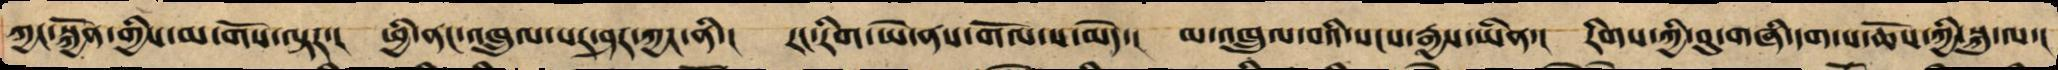ཀྱང་སྐྱོན་གྱིས་མ་གོས་ལྟར་། ཕྱི་ནང་འཁྲུལ་པར་ཤར་ཀྱང་ནི་། རང་རིག་ཡེ་ནས་གོལ་ས་མེད་། མ་འཁྲུལ་བའི་སངས་རྒྱས་ཡིན་། རིགས་ཀྱི་བུ་གཞི་དག་པ་ཆོས་ཀྱི་སྐུ་ལ་།
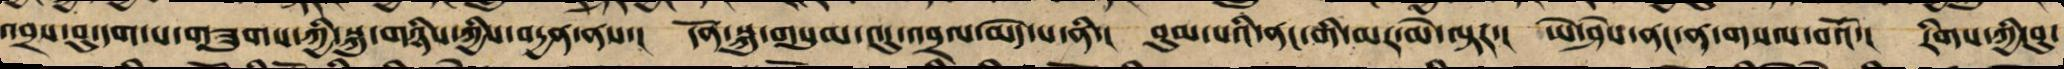འབྲས་བུ་དག་པ་གཟུགས་ཀྱི་སྐུ་གཉིས་ཀྱིས་བདྱན་ནས་། དོན་སྐུ་གསུམ་འདུ་འབྲལ་མེད་པ་ནི་། བུམ་པའི་ནང་གི་མར་མེ་ལྟར་། ཡེ་ཤེས་ནང་ན་གསལ་བའོ་། རིགས་ཀྱི་བུ་
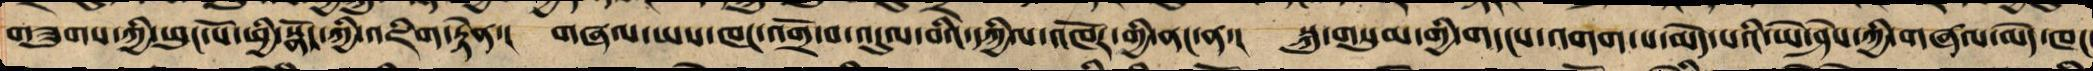གཟུགས་ཀྱི་ཕུང་པོ་ཕྱི་སྣོད་ཀྱི་འཇིག་རྟེན་། གཞལ་ཡས་ཁང་འགྲོ་བ་འདུལ་བའི་དཀྱིལ་འཁོར་གྱི་ནང་ན་། སྐུ་གསུམ་གྱི་གདངས་འགག་པ་མེད་པའི་ཡེ་ཤེས་ཀྱི་གཞལ་མེད་ཁང་
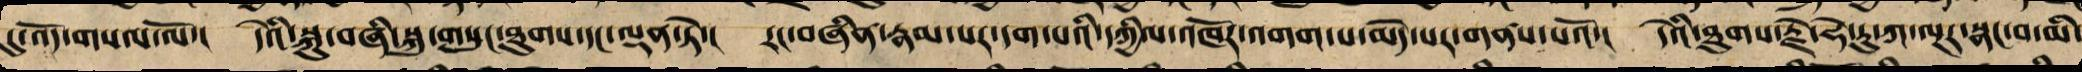དུ་འོད་གསལ་ལོ་། དེའི་སྐུ་བཞི་སྐུ་གསུང་ཐུགས་དང་ལྡན་ཏེ་། རང་བཞིན་རྣམ་པར་དག་པའི་དཀྱིལ་འཁོར་འགག་པ་མེད་པར་གནས་པའོ་། དེའི་ཐུགས་རྗེ་ཧེ་རུ་ཀ་ལྔར་སྣང་བ་མི་
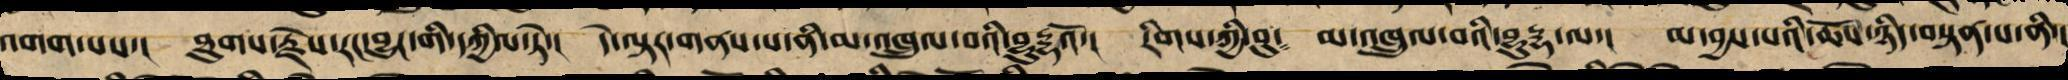འགག་པས་། ཐུགས་རྗེས་རང་བྱུང་གི་དཀྱིལ་ཏེ་། དེ་ལྟར་གནས་པ་ནི་མ་འཁྲུལ་བའི་བུདྡྷའོ་། རིགས་ཀྱི་བུ༴ མ་འཁྲུལ་བའི་བུདྡྷ་ལ་། མ་བྱས་པའི་ཆོས་ཉིད་བསྟན་པ་ནི་།
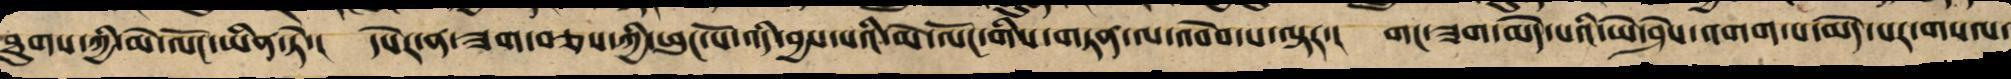ཐུགས་ཀྱི་མེ་ལོང་ཡིན་ཏེ་། དཔེར་ན་ཟག་བཅས་ཀྱི་ཕུང་པོ་འདི་བྱས་པའི་མེ་ལོང་གིས་གཏན་ལ་འབེབ་པ་ལྟར་། གང་ཟག་མེད་པའི་ཡེ་ཤེས་འགག་པ་མེད་པར་གསལ་
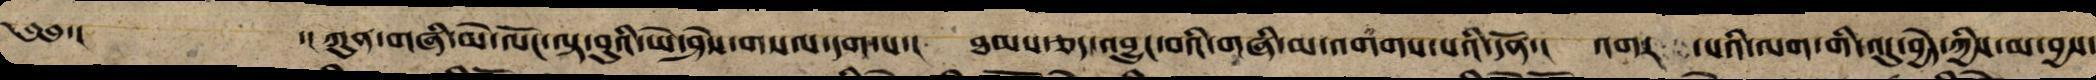༄༅་། ་། ཀུན་གཞི་མེ་ལོང་ལྟ་བུའི་ཡེ་ཤེས་གསལ་ལ་དག་པ་། ཐམས་ཅད་འབྱུང་བའི་གཞི་མ་འགགས་པའི་དོན་། འགར ་པའི་ལག་གི་འདུ་བྱེད་ཀྱིས་མ་བྱས་
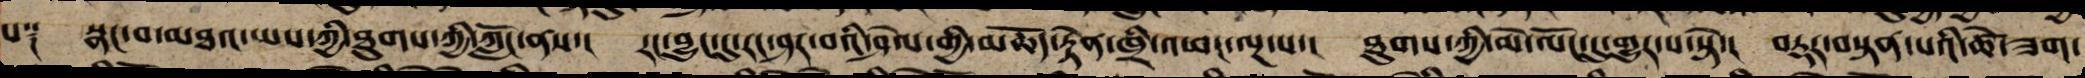པ༑ སྣང་བ་མཐའ་ཡས་ཀྱི་ཐུགས་ཀྱི་ཀློང་ནས་། རང་བྱུང་དུ་རང་ཤར་བའི་ཤེལ་གྱི་མཆོད་རྟེན་ཁྲི་འཕང་ལྔ་པ་། ཐུགས་ཀྱི་མེ་ལོང་དུ་གྱུར་པ་སྟེ་། བརྡར་བསྟན་པའི་ཚེ་ཟག་
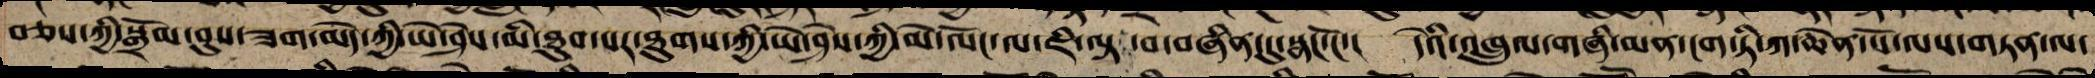བཅས་ཀྱི་སྒྲོམ་བུས་ཟག་མེད་ཀྱི་ཡེ་ཤེས་མི་ཐུབ་པར་ཐུགས་ཀྱི་ཡེ་ཤེས་ཀྱི་མེ་ལོང་ལ་ཇི་ལྟ་བ་བཞིན་དུ་སྣང་ངོ་། དེའི་འཁྲུལ་གཞི་མན་ངག་ཏི་ཀ་ཆེན་པོ་ལས་གཏན་ལ་
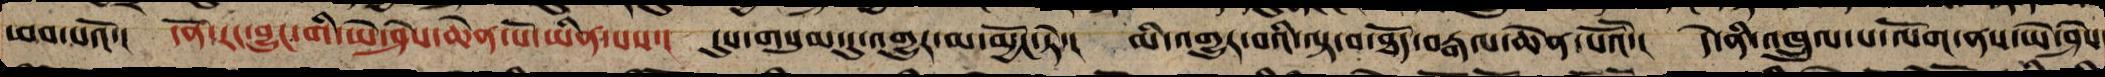ཕབ་པའོ་། དོན་རང་བྱུང་གི་ཡེ་ཤེས་ཆེན་པོ་ཡིན་པས་། དུས་གསུམ་དུ་འགྱུར་མ་མྱོང་ཏེ་། མི་འགྱུར་བའི་ལྟ་བ་ཐོད་བརྒལ་ཆེན་པོའོ་། དེ་ནི་འཁྲུལ་པ་ལོག་ནས་ཡེ་ཤེས་
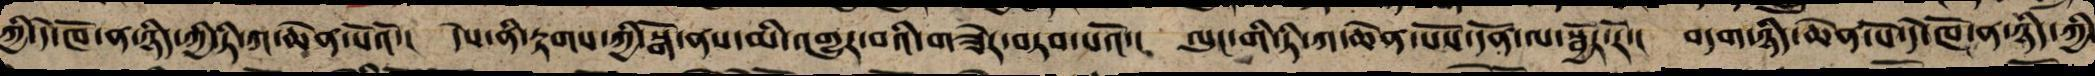ཀྱི་དེ་ཁོ་ན་ཉིད་ཀྱི་ཏི་ཀ་ཆེན་པོའོ་། དེས་ནི་རྟགས་ཀྱི་སྒོ་ནས་མི་འགྱུར་བའི་གཟེར་བཏབ་པའོ་། ལུང་གི་ཏི་ཀ་ཆེན་པོས་དོན་ལ་སྦྱོར་རོ་། བདག་ཉིད་ཆེན་པོ་དེ་ཁོ་ན་ཉིད་ཀྱི་
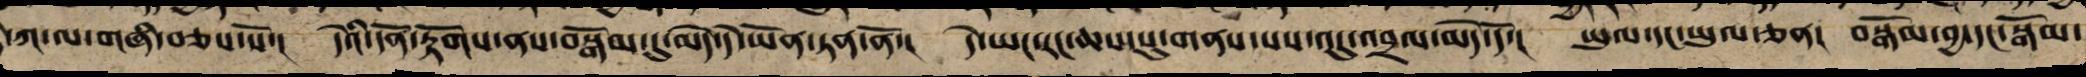ཀ་ལ་གཞི་བཅས་པའོ་། དེའི་དོན་རྟོགས་ནས་བསྒོམ་དུ་མེད་དེ་ཡོན་ཏན་ནོ་། དེ་ཡང་རང་ཆས་སུ་གནས་པས་འདུ་འབྲལ་མེད་དོ་། ཡུལ་དང་ཡུལ་ཅན། བསྒོམ་བྱ་དང་སྒོམ་
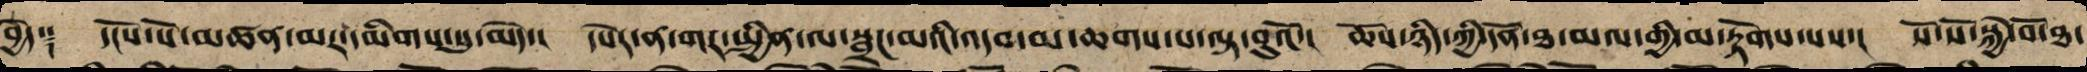བྱེད༑ དངོས་པོ་མཚན་མར་དམིགས་སུ་མེད་། དཔེར་ན་གར་སྤྱིན་ལ་སྦྲང་མའི་འདབ་མ་ཆག་པ་ལྟ་བུའོ་། ཆོས་ཉིད་ཀྱི་དོན་ཐ་མལ་གྱི་མི་རྟོགས་པས་། སོ་སོའི་སྐྱེ་བོ་ཐ་
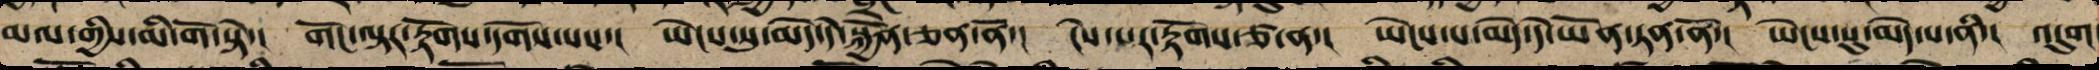མལ་གྱིས་མི་གོ་སྟེ་། གོང་ལྟར་རྟོགས་དགོས་པས་། ཡེངས་སུ་མེད་དེ་སྐྱོན་ཅན་ནོ་། ངེས་པར་རྟོགས་ཙ་ན་། ཡེངས་པ་མེད་དེ་ཡོན་ཏན་ནོ་། ཡེངས་སུ་མེད་པ་ནི་། འདུག་
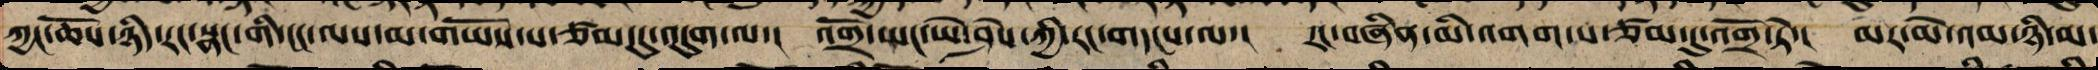ཀྱང་ཆོས་ཉིད་རང་སྣང་གི་ངང་ལས་མ་གཡོས་པ་ཙམ་དུ་འདུག་ལ་། འགྲོ་ཡང་ཡེ་ཤེས་ཀྱི་རང་གདངས་ལ་། རང་བཞིན་མི་འགག་པ་ཙམ་དུ་འགྲོ་ཏེ་། མར་མེ་འམ་ཉི་མ་
